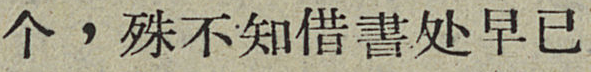个，殊不知借書处早已
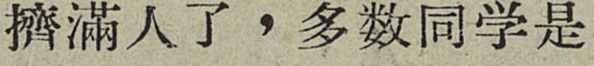擠滿人了，多数同学是
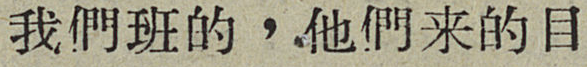我們班的，他們来的目
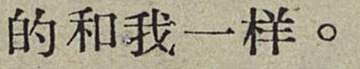的和我一样。
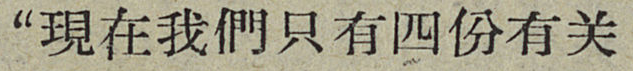“現在我們只有四份有关
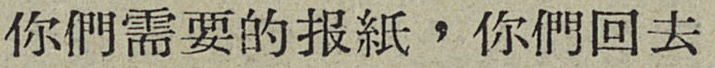你們需要的报紙，你們回去
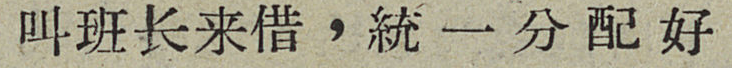叫班长来借，統一分配好
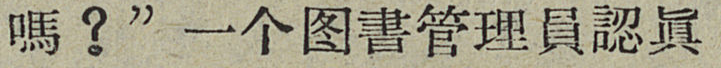嗎？”一个图書管理員認眞
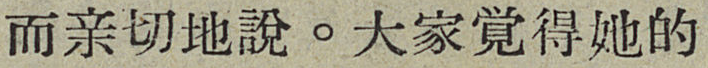而亲切地說。大家覚得她的
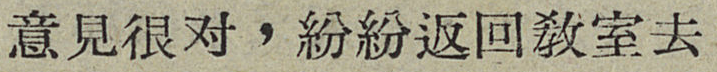意見很对，紛紛返回敎室去
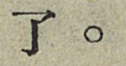了。
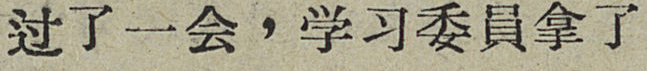过了一会，学习委員拿了
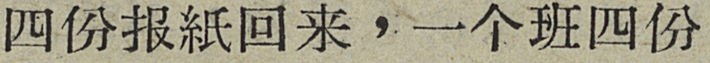四份报紙回来，一个班四份
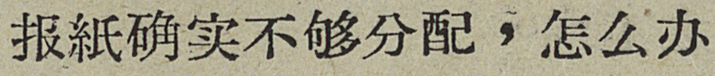报紙确实不够分配，怎么办
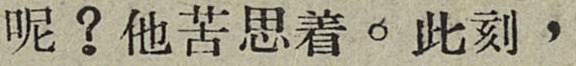呢？他苦思着。此刻，
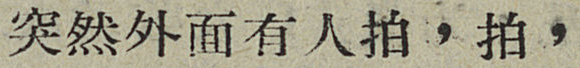突然外面有人拍，拍，
